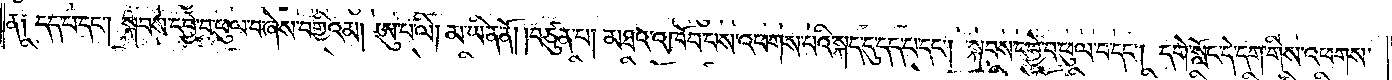ན༑ དད་པ་དང༌། སྐབས་དབྱེ་བ་ཕུལ་བ་ཞེས་བགྱིའམ། ཨུ་པ་ལི། མ་ཡིན་ནོ། །བཙུན་པ། མཐའ་འཁོབ་པས་འཕགས་པའི་སྐད་དུ་དད་པ་དང༌། སྐབས་དབྱེ་བ་ཕུལ་བ་དང༌། དགེ་སློང་དེ་དག་གིས་འཕགས་
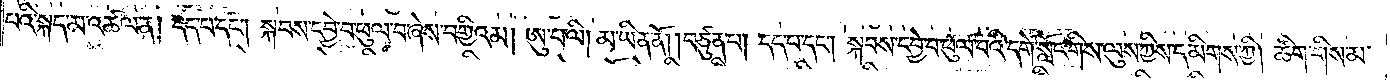པའི་སྐད་མ་འཚལ་ན། དད་པ་དང༌། སྐབས་དབྱེ་བ་ཕུལ་བ་ཞེས་བགྱིའམ། ཨུ་པ་ལི། མ་ཡིན་ནོ། །བཙུན་པ། དད་པ་དང༌། སྐབས་དབྱེ་བ་ཕུལ་བའི་དགེ་སློང་གིས་ལུས་ཀྱིས་དམིགས་ཀྱི། ཚིག་གིས་མ་
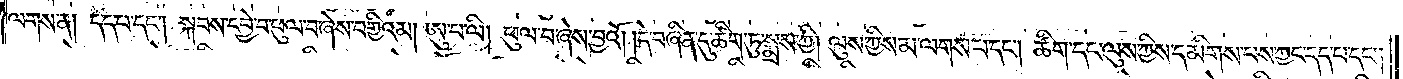ལགས་ན། དད་པ་དང༌། སྐབས་དབྱེ་བ་ཕུལ་བ་ཞེས་བགྱིའམ། ཨུ་པ་ལི། ཕུལ་བ་ཞེས་བྱའོ། །དེ་བཞིན་དུ་ཚིག་ཏུ་སྨྲས་ཀྱི། ལུས་ཀྱིས་མ་ལགས་པ་དང༌། ཚིག་དང་ལུས་ཀྱིས་དམིགས་པས་ཀྱང་དད་པ་དང༌།
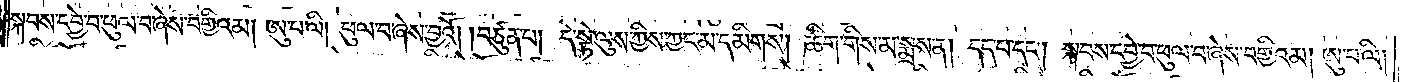སྐབས་དབྱེ་བ་ཕུལ་བ་ཞེས་བགྱིའམ། ཨུ་པ་ལི། ཕུལ་བ་ཞེས་བྱའོ། །བཙུན་པ། དེ་སྟེ་ལུས་ཀྱིས་ཀྱང་མ་དམིགས། ཚིག་གིས་མ་སྨྲས་ན། དད་པ་དང༌། སྐབས་དབྱེ་བ་ཕུལ་བ་ཞེས་བགྱིའམ། ཨུ་པ་ལི།
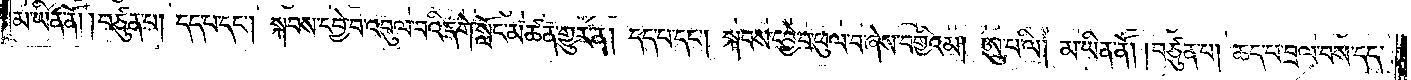མ་ཡིན་ནོ། །བཙུན་པ། དད་པ་དང༌། སྐབས་དབྱེ་བ་འབུལ་བའི་དགེ་སློང་མཚན་གྱུར་ན། དད་པ་དང༌། སྐབས་དབྱེ་བ་ཕུལ་བ་ཞེས་བགྱིའམ། ཨུ་པ་ལི། མ་ཡིན་ནོ། །བཙུན་པ། ཆད་པ་བྲལ་བས་དད་
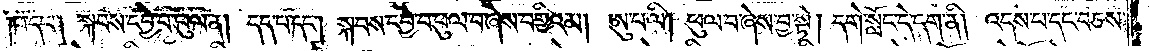།པ་དང༌། སྐབས་དབྱེ་བ་ཕུལ་ན། དད་པ་དང༌། སྐབས་དབྱེ་བ་ཕུལ་བ་ཞེས་བགྱིའམ། ཨུ་པ་ལི། ཕུལ་བ་ཞེས་བྱ་སྟེ། དགེ་སློང་དེ་དག་ནི། འདས་པ་དང་བཅས་
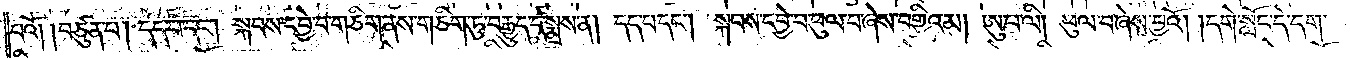བའོ། །བཙུན་པ། དད་པ་དང༌། སྐབས་དབྱེ་བ་གཅིག་ནས་གཅིག་ཏུ་བརྒྱུད་དེ་སྨྲས་ན། དད་པ་དང༌། སྐབས་དབྱེ་བ་ཕུལ་བ་ཞེས་བགྱིའམ། ཨུ་པ་ལི། ཕུལ་བ་ཞེས་བྱའོ། །དགེ་སློང་དེ་དག་
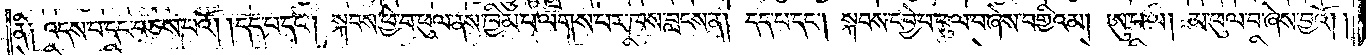ནི༑ འདས་པ་དང་བཅས་པའོ། །དད་པ་དང༌། སྐབས་ཕྱེ་བ་ཕུལ་ནས་ཁྱིམ་པ་ལགས་པར་ཁས་བླངས་ན། དད་པ་དང༌། སྐབས་དབྱེ་བ་ཕུལ་བ་ཞེས་བགྱིའམ། ཨུ་པ་ལི། མ་ཕུལ་བ་ཞེས་བྱའོ། །
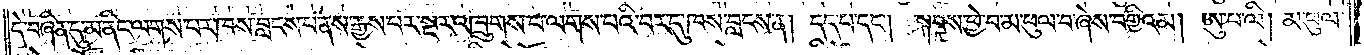དེ་བཞིན་དུ་མ་ནིང་ལགས་པར་ཁས་བླངས་པ་ནས་རྒྱས་པར་སྔར་འཁྲུགས་པ་ལགས་པའི་བར་དུ་ཁས་བླངས་ན། དད་པ་དང༌། སྐབས་ཕྱེ་བ་མ་ཕུལ་བ་ཞེས་བགྱིའམ། ཨུ་པ་ལི། མ་ཕུལ་
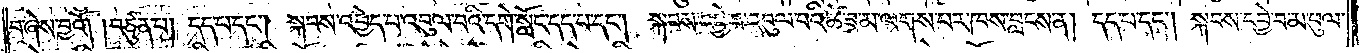བ་ཞེས་བྱའོ། །བཙུན་པ། དད་པ་དང༌། སྐབས་འབྱེད་པ་འབུལ་བའི་དགེ་སློང་དད་པ་དང༌། སྐབས་དབྱེ་བ་འབུལ་བའི་ཚེ་ཟ་མ་ལགས་པར་ཁས་བླངས་ན། དད་པ་དང༌། སྐབས་དབྱེ་བ་མ་ཕུལ་
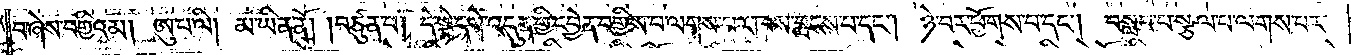བ་ཞེས་བགྱིའམ། ཨུ་པ་ལི། མ་ཡིན་ནོ། །བཙུན་པ། དེ་སྟེ་དགེ་འདུན་གྱི་དབྱེན་བགྱིས་པ་ལགས་པར་ཁས་བླངས་པ་དང༌། ཉེ་བར་ཕྱོགས་པ་དང༌། བསླབ་པ་སྩལ་པ་ལགས་པར་
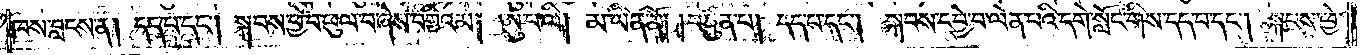ཁས་བླངས་ན། དད་པ་དང༌། སྐབས་ཕྱེ་བ་ཕུལ་བ་ཞེས་བགྱིའམ། ཨུ་པ་ལི། མ་ཡིན་ནོ། །བཙུན་པ། དད་པ་དང༌། སྐབས་དབྱེ་བ་ལེན་པའི་དགེ་སློང་གིས་དད་པ་དང༌། སྐབས་ཕྱེ་
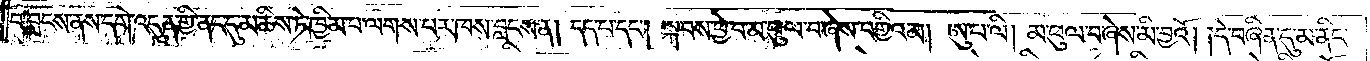བ་བླངས་ནས་དགེ་འདུན་གྱི་ནང་དུ་མཆིས་ཏེ་ཁྱིམ་པ་ལགས་པར་ཁས་བླངས་ན། དད་པ་དང༌། སྐབས་ཕྱེ་བ་མ་ཕུལ་བ་ཞེས་བགྱིའམ། ཨུ་པ་ལི། མ་ཕུལ་བ་ཞེས་མི་བྱའོ། །དེ་བཞིན་དུ་མ་ནིང་
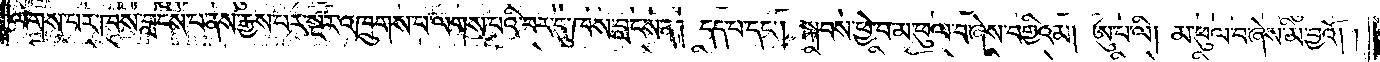ལགས་པར་ཁས་བླངས་པ་ནས་རྒྱས་པར་སྔར་འཁྲུགས་པ་ལགས་པའི་བར་དུ་ཁས་བླངས་ན། དད་པ་དང༌། སྐབས་ཕྱེ་བ་མ་ཕུལ་བ་ཞེས་བགྱིའམ། ཨུ་པ་ལི། མ་ཕུལ་བ་ཞེས་མི་བྱའོ། །
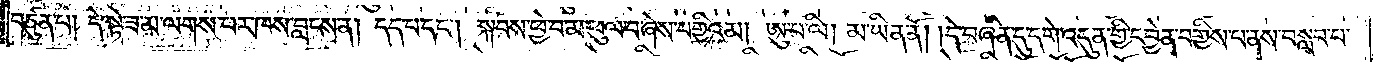བཙུན་པ། དེ་སྟེ་ཟ་མ་ལགས་པར་ཁས་བླངས་ན། དད་པ་དང༌། སྐབས་ཕྱེ་བ་མ་ཕུལ་བ་ཞེས་བགྱིའམ། ཨུ་པ་ལི། མ་ཡིན་ནོ། །དེ་བཞིན་དུ་དགེ་འདུན་གྱི་དབྱེན་བགྱིས་པ་ནས་བསླབ་པ་
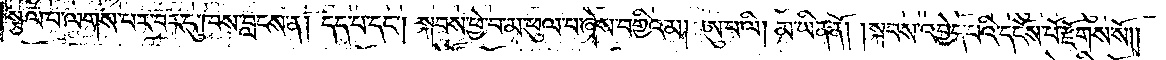སྩལ་པ་ལགས་པར་བར་དུ་ཁས་བླངས་ན། དད་པ་དང༌། སྐབས་ཕྱེ་བ་མ་ཕུལ་བ་ཞེས་བགྱིའམ། ཨུ་པ་ལི། མ་ཡིན་ནོ། །སྐབས་འབྱེད་པའི་དངོས་པོ་རྫོགས་སོ༎
